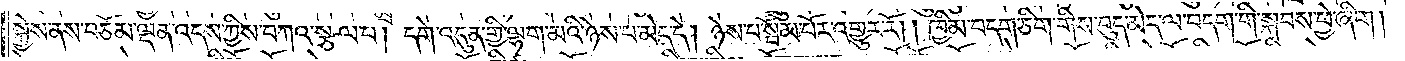སྐྱེས་ནས་བཅོམ་ལྡན་འདས་ཀྱིས་བཀའ་སྩལ་པ། དགེ་འདུན་གྱི་ལྷག་མའི་ཉེས་པ་མེད་དེ། ཉེས་པ་སྦོམ་པོར་འགྱུར་རོ། །ཁྱིམ་བདག་ཅིག་གིས་བུད་མེད་ལ་བདག་གི་སྐབས་ཕྱེ་ཞིག།
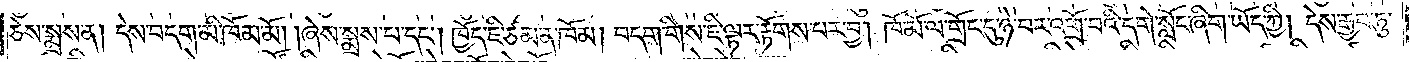ཅེས་སྨྲས་ན། དེས་བདག་མི་ཁོམ་མོ། །ཞེས་སྨྲས་པ་དང༌། ཁྱོད་ཇི་ཙམ་ན་ཁོམ། བདག་གིས་ཇི་ལྟར་རྟོགས་པར་བྱ། ཁོ་མོ་ལ་གྲོང་དུ་ཉེ་བར་འགྲོ་བའི་དགེ་སློང་ཞིག་ཡོད་ཀྱི། དེས་རྒྱབ་ཏུ་
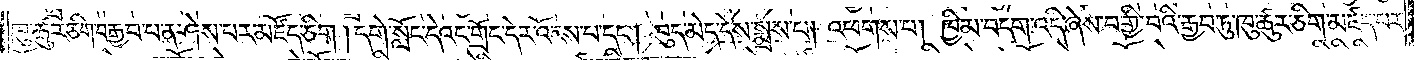ཁུ་ཚུར་ཅིག་བརྒྱབ་པ་ན་ཤེས་པར་མཛོད་ཅིག །དགེ་སློང་དེའང་གྲོང་དེར་འོངས་པ་དང༌། བུད་མེད་དེས་སྨྲས་པ། འཕགས་པ། ཁྱིམ་བདག་འདི་ཞེས་བགྱི་བའི་རྒྱབ་ཏུ་ཁུ་ཚུར་ཅིག་མཛད་པར་
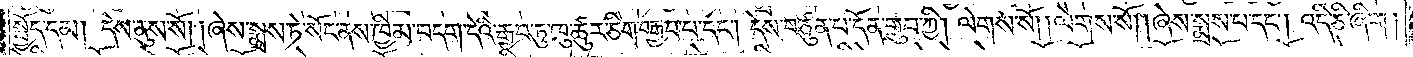སྤྱོད་དམ། དེས་ནུས་སོ། །ཞེས་སྨྲས་ཏེ་སོང་ནས་ཁྱིམ་བདག་དེའི་རྒྱབ་ཏུ་ཁུ་ཚུར་ཅིག་བརྒྱབ་པ་དང༌། དེས་བཙུན་པ་དོན་གྲུབ་ཀྱི། ལེགས་སོ། །ལེགས་སོ། །ཞེས་སྨྲས་པ་དང༌། འདི་ཅི་ཞིག་
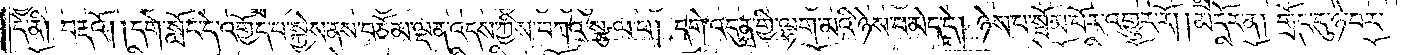དེ་ནི། བརྡའོ། །དགེ་སློང་དེ་འགྱོད་པ་སྐྱེས་ནས་བཅོམ་ལྡན་འདས་ཀྱིས་བཀའ་སྩལ་པ། དགེ་འདུན་གྱི་ལྷག་མའི་ཉེས་པ་མེད་དེ། ཉེས་པ་སྦོམ་པོར་འགྱུར་རོ། །མདོར་ན། གྲོང་དུ་ཉེ་བར་
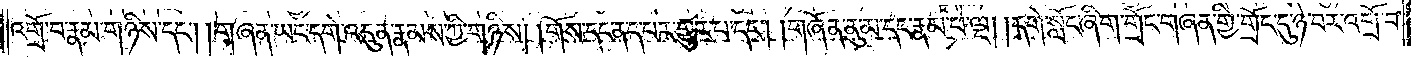འགྲོ་བ་རྣམ་གཉིས་དང༌། གཞན་ཡང་དག་པར་དགེ་འདུན་རྣམས་ཀྱིས་གཉིས། །གོས་དང་ནད་པར་གྱུར་པ་དང༌། གཞོན་ནུ་མ་དང་རྣམ་པ་ལྔ། དགེ་སློང་ཞིག་གྲོང་གཞན་གྱི་གྲོང་དུ་ཉེ་བར་འགྲོ་བ་
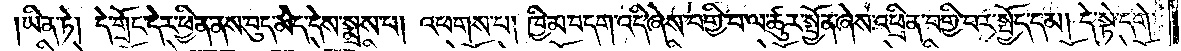ཡིན་ཏེ། དེ་གྲོང་དེར་ཕྱིན་ནས་བུད་མེད་དེས་སྨྲས་པ། འཕགས་པ། ཁྱིམ་བདག་འདི་ཞེས་བགྱི་བ་ལ་ཚུར་སྤྱོན་ཞེས་འཕྲིན་བགྱི་བར་སྤྱོད་དམ། དེ་སྟེ་དགེ་
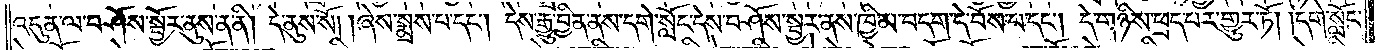འདུན་ལ་བཤོས་སྦྱོར་ནུས་ན་ནི། དེ་ནུས་སོ། །ཞེས་སྨྲས་པ་དང༌། དེས་རྒྱུ་བྱིན་ནས་དགེ་སློང་དེས་བཤོས་སྦྱར་ནས་ཁྱིམ་བདག་དེ་བོས་པ་དང༌། དེ་གཉིས་ཕྲད་པར་གྱུར་ཏོ། །དགེ་སློང་
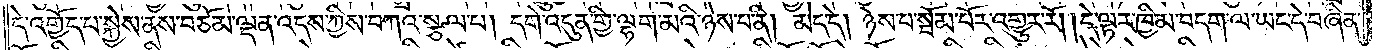དེ་འགྱོད་པ་སྐྱེས་ནས་བཅོམ་ལྡན་འདས་ཀྱིས་བཀའ་སྩལ་པ། དགེ་འདུན་གྱི་ལྷག་མའི་ཉེས་པ་ནི། མེད་དེ། ཉེས་པ་སྦོམ་པོར་འགྱུར་རོ། །དེ་ལྟར་ཁྱིམ་བདག་ལ་ཡང་དེ་བཞིན་
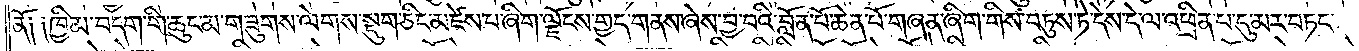ནོ༑ ༑ཁྱིམ་བདག་གི་ཆུང་མ་གཟུགས་ལེགས་སྡུག་ཅིང་མཛེས་པ་ཞིག་ལྗོངས་གྱད་གནས་ཞེས་བྱ་བའི་བློན་པོ་ཆེན་པོ་གཞན་ཞིག་གིས་བཏུས་ཏེ་དེས་དེ་ལ་འཕྲིན་པ་དུ་མར་བཏང་
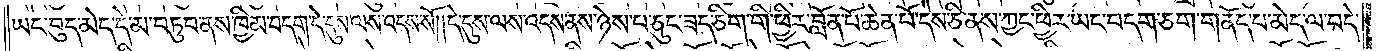ཡང་བུད་མེད་དེ་མ་བཏུབ་ནས་ཁྱིམ་བདག་དེ་དུས་ལས་འདས་སོ། །དེ་དུས་ལས་འདས་ནས་ཉེས་པ་ཅུང་ཟད་ཅིག་གི་ཕྱིར་བློན་པོ་ཆེན་པོ་དེས་ཅི་ནས་ཀྱང་ཕྱིར་ཡང་བདག་ཅག་གནོད་པ་མེད་ལ་བདེ་
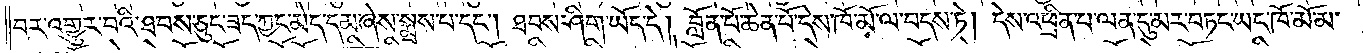བར་འགྱུར་བའི་ཐབས་ཅུང་ཟད་ཀྱང་མེད་དམ་ཞེས་སྨྲས་པ་དང༌། ཐབས་ཤིག་ཡོད་དེ། བློན་པོ་ཆེན་པོ་དེས་ཁོ་མོ་ལ་བདས་ཏེ། དེས་འཕྲིན་པ་ལན་དུ་མར་བཏང་ཡང་ཁོ་མོ་མ་
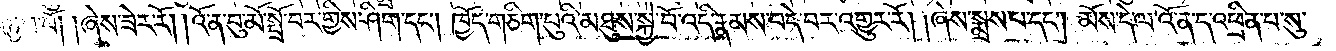བཏུབ་བོ། །ཞེས་ཟེར་རོ། །འོ་ན་བུ་མོ་སྤྲོ་བར་གྱིས་ཤིག་དང༌། ཁྱོད་གཅིག་པུའི་མཐུས་སྐྱེ་བོ་འདི་རྣམས་བདེ་བར་འགྱུར་རོ། །ཞེས་སྨྲས་པ་དང༌། མོས་དེ་ལ་འོ་ན་ད་འཕྲིན་པ་སུ་
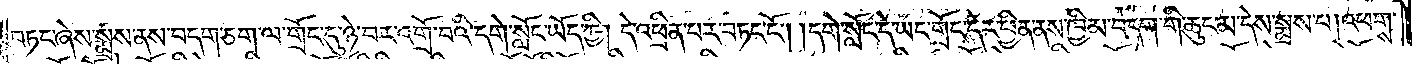བཏང་ཞེས་སྨྲས་ནས་བདག་ཅག་ལ་གྲོང་དུ་ཉེ་བར་འགྲོ་བའི་དགེ་སློང་ཡོད་ཀྱི། དེ་འཕྲིན་བར་བཏང་ངོ༌། །དགེ་སློང་དེ་ཡང་གྲོང་དེར་ཕྱིན་ནས་ཁྱིམ་བདག་གི་ཆུང་མ་དེས་སྨྲས་པ། འཕགས་
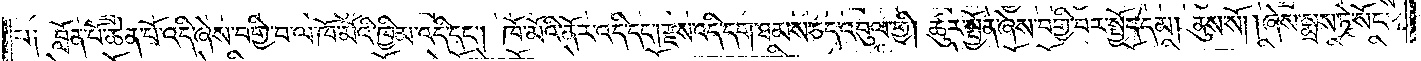པ༑ བློན་པོ་ཆེན་པོ་འདི་ཞེས་བགྱི་བ་ལ་ཁོ་མོའི་ཁྱིམ་འདི་དང༌། ཁོ་མོའི་ནོར་འདི་དང༌། རྫས་འདི་དག་ཐམས་ཅད་འབུལ་གྱི། ཚུར་སྤྱོན་ཞེས་བགྱི་བར་སྤྱོད་དམ། ནུས་སོ། །ཞེས་སྨྲས་ཏེ་སོང་
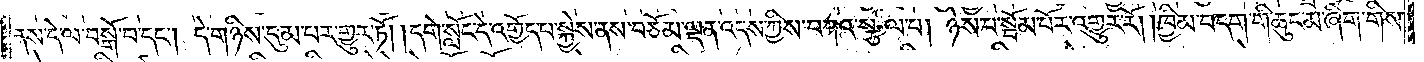ནས་དེ་ལ་བསྒོ་བ་དང༌། དེ་གཉིས་དུམ་པར་གྱུར་ཏོ། །དགེ་སློང་དེ་འགྱོད་པ་སྐྱེས་ནས་བཅོམ་ལྡན་འདས་ཀྱིས་བཀའ་སྩལ་པ། ཉེས་པ་སྦོམ་པོར་འགྱུར་རོ། །ཁྱིམ་བདག་གི་ཆུང་མ་ཞིག་གིས་
